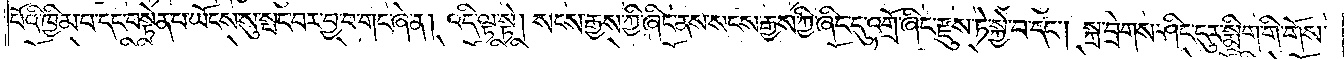པོའི་ཁྱིམ་པ་དང་བསྟེན་པ་ཡོངས་སུ་སྤང་བར་བྱ་བ་གང་ཞེ་ན། འདི་ལྟ་སྟེ། སངས་རྒྱས་ཀྱི་ཞིང་ནས་སངས་རྒྱས་ཀྱི་ཞིང་དུ་འགྲོ་ཞིང་རྫུས་ཏེ་སྐྱེ་བ་དང༌། སྐྲ་བྲེགས་ཤིང་ངུར་སྨྲིག་གི་གོས་
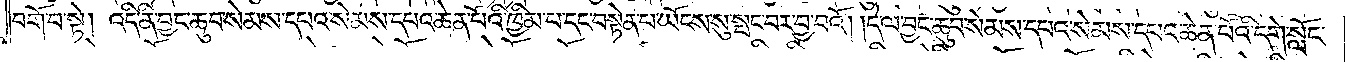བགོ་བ་སྟེ། འདི་ནི་བྱང་ཆུབ་སེམས་དཔའ་སེམས་དཔའ་ཆེན་པོའི་ཁྱིམ་པ་དང་བསྟེན་པ་ཡོངས་སུ་སྤང་བར་བྱ་བའོ། །དེ་ལ་བྱང་ཆུབ་སེམས་དཔའ་སེམས་དཔའ་ཆེན་པོའི་དགེ་སློང་
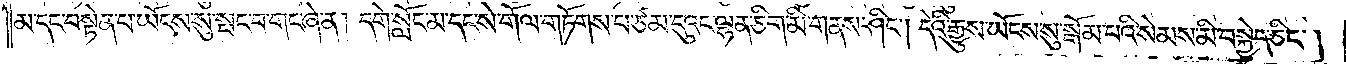མ་དང་བསྟེན་པ་ཡོངས་སུ་སྤང་བ་གང་ཞེ་ན། དགེ་སློང་མ་དང་སེ་གོལ་གཏོགས་པ་ཙམ་དུའང་ལྷན་ཅིག་མི་གནས་ཤིང༌། དེའི་རྒྱུས་ཡོངས་སུ་སྒོམ་པའི་སེམས་མི་བསྐྱེད་ཅིང༌།
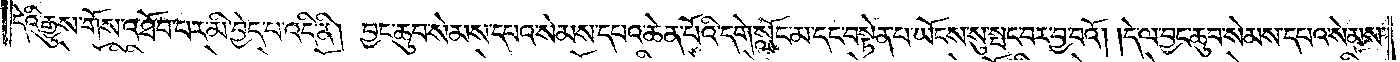དེའི་རྒྱུས་གོས་འཐོབ་པར་མི་བྱེད་པ་འདི་ནི། བྱང་ཆུབ་སེམས་དཔའ་སེམས་དཔའ་ཆེན་པོའི་དགེ་སློང་མ་དང་བསྟེན་པ་ཡོངས་སུ་སྤང་བར་བྱ་བའོ། །དེ་ལ་བྱང་ཆུབ་སེམས་དཔའ་སེམས་
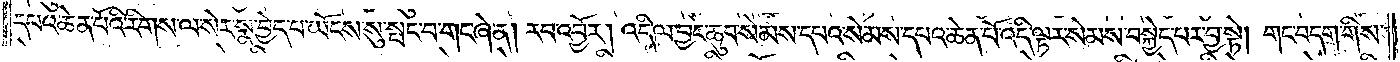དཔའ་ཆེན་པོའི་རིགས་ལ་སེར་སྣ་བྱེད་པ་ཡོངས་སུ་སྤང་བ་གང་ཞེ་ན། རབ་འབྱོར། འདི་ལ་བྱང་ཆུབ་སེམས་དཔའ་སེམས་དཔའ་ཆེན་པོ་འདི་ལྟར་སེམས་བསྐྱེད་པར་བྱ་སྟེ། གང་བདག་གིས་
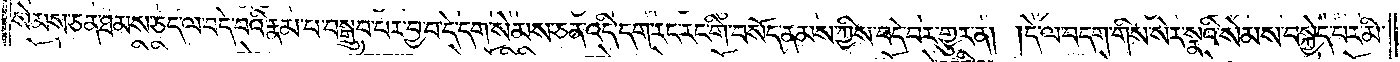སེམས་ཅན་ཐམས་ཅད་ལ་བདེ་བའི་རྣམ་པ་བསྒྲུབ་པར་བྱ་བ་དེ་དག་སེམས་ཅན་འདི་དག་རང་རང་གིས་བསོད་ནམས་ཀྱིས་བདེ་བར་གྱུར་ན། དེ་ལ་བདག་གིས་སེར་སྣའི་སེམས་བསྐྱེད་པར་མི་
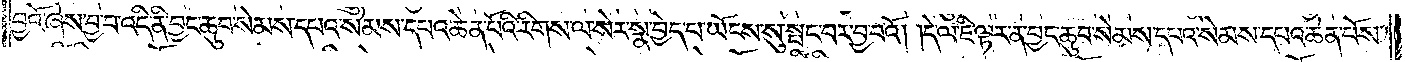བྱའོ་ཞེས་བྱ་བ་འདི་ནི་བྱང་ཆུབ་སེམས་དཔའ་སེམས་དཔའ་ཆེན་པོའི་རིགས་ལ་སེར་སྣ་བྱེད་པ་ཡོངས་སུ་སྤང་བར་བྱ་བའོ། །དེ་ལ་ཇི་ལྟར་ན་བྱང་ཆུབ་སེམས་དཔའ་སེམས་དཔའ་ཆེན་པོས།
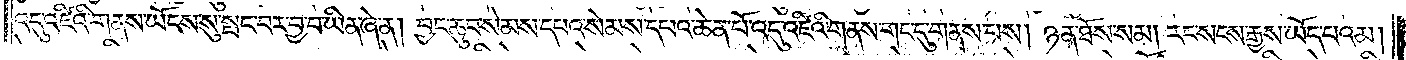འདུ་འཛིའི་གནས་ཡོངས་སུ་སྤང་བར་བྱ་བ་ཡིན་ཞེ་ན། བྱང་ཆུབ་སེམས་དཔའ་སེམས་དཔའ་ཆེན་པོ་འདུ་འཛིའི་གནས་གང་དུ་གནས་པས། ཉན་ཐོས་སམ། རང་སངས་རྒྱས་ཡོད་པ་འམ།
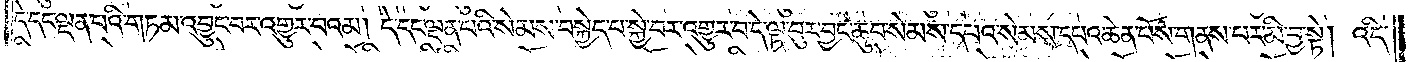དེ་དང་ལྡན་པའི་གཏམ་འབྱུང་བར་འགྱུར་བ་འམ། དེ་དང་ལྡན་པའི་སེམས་བསྐྱེད་པ་སྐྱེ་བར་འགྱུར་བ་དེ་ལྟ་བུར་བྱང་ཆུབ་སེམས་དཔའ་སེམས་དཔའ་ཆེན་པོས་གནས་པར་མི་བྱ་སྟེ། འདི་
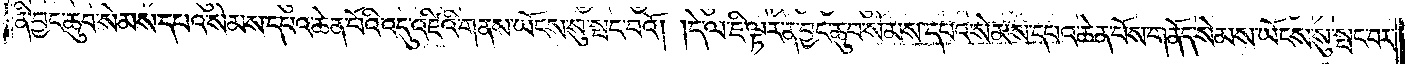ནི་བྱང་ཆུབ་སེམས་དཔའ་སེམས་དཔའ་ཆེན་པོའི་འདུ་འཛིའི་གནས་ཡོངས་སུ་སྤང་བའོ། །དེ་ལ་ཇི་ལྟར་ན་བྱང་ཆུབ་སེམས་དཔའ་སེམས་དཔའ་ཆེན་པོས་གནོད་སེམས་ཡོངས་སུ་སྤང་བར་
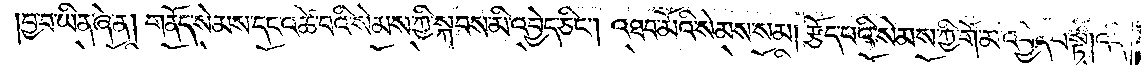བྱ་བ་ཡིན་ཞེ་ན། གནོད་སེམས་དང་འཚེ་བའི་སེམས་ཀྱི་སྐབས་མི་འབྱེད་ཅིང༌། འཐབ་མོའི་སེམས་སམ། རྩོད་པའི་སེམས་ཀྱི་གོ་མི་འབྱེད་པ་སྟེ། འདི་
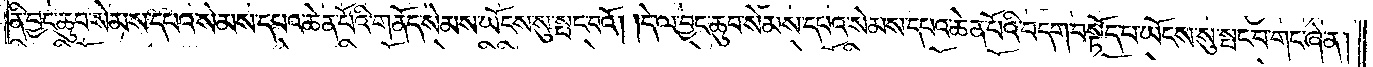ནི་བྱང་ཆུབ་སེམས་དཔའ་སེམས་དཔའ་ཆེན་པོའི་གནོད་སེམས་ཡོངས་སུ་སྤང་བའོ། །དེ་ལ་བྱང་ཆུབ་སེམས་དཔའ་སེམས་དཔའ་ཆེན་པོའི་བདག་བསྟོད་པ་ཡོངས་སུ་སྤང་བ་གང་ཞེ་ན།
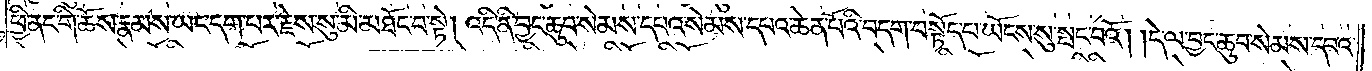ཕྱི་ནང་གི་ཆོས་རྣམས་ཡང་དག་པར་རྗེས་སུ་མི་མཐོང་བ་སྟེ། འདི་ནི་བྱང་ཆུབ་སེམས་དཔའ་སེམས་དཔའ་ཆེན་པོའི་བདག་བསྟོད་པ་ཡོངས་སུ་སྤང་བའོ། །དེ་ལ་བྱང་ཆུབ་སེམས་དཔའ་
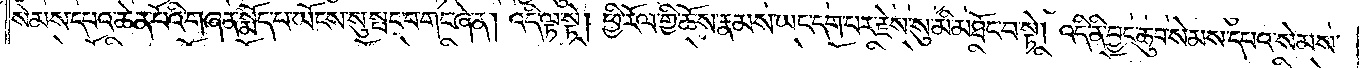སེམས་དཔའ་ཆེན་པོའི་གཞན་སྨོད་པ་ཡོངས་སུ་སྤང་བ་གང་ཞེ་ན། འདི་ལྟ་སྟེ། ཕྱི་རོལ་གྱི་ཆོས་རྣམས་ཡང་དག་པར་རྗེས་སུ་མི་མཐོང་བ་སྟེ། འདི་ནི་བྱང་ཆུབ་སེམས་དཔའ་སེམས་
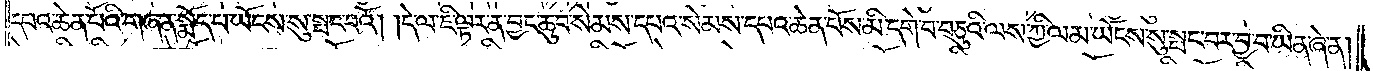དཔའ་ཆེན་པོའི་གཞན་སྨོད་པ་ཡོངས་སུ་སྤང་བའོ། །དེ་ལ་ཇི་ལྟར་ན་བྱང་ཆུབ་སེམས་དཔའ་སེམས་དཔའ་ཆེན་པོས་མི་དགེ་བ་བཅུའི་ལས་ཀྱི་ལམ་ཡོངས་སུ་སྤང་བར་བྱ་བ་ཡིན་ཞེ་ན།
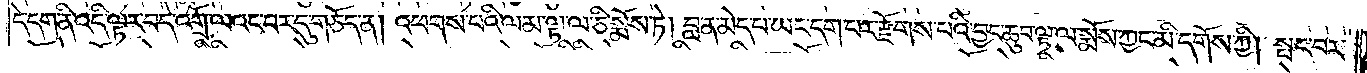དེ་དག་ནི་འདི་ལྟར་བདེ་འགྲོ་ལའང་བར་དུ་གཅོད་ན། །འཕགས་པའི་ལམ་ལྟ་ལ་ཅི་སྨོས་ཏེ། བླ་ན་མེད་པ་ཡང་དག་པར་རྫོགས་པའི་བྱང་ཆུབ་ལྟ་ལ་སྨོས་ཀྱང་མི་དགོས་ཀྱི། སྤང་བར་
